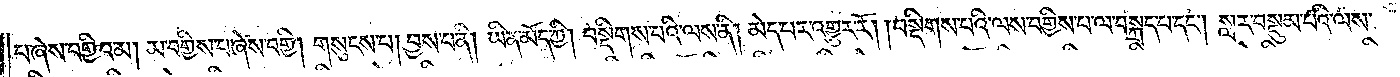པ་ཞེས་བགྱིའམ། མ་བགྱིས་པ་ཞེས་བགྱི། གསུངས་པ། བྱས་པ་ནི། ཡིན་མོད་ཀྱི། བསྡིགས་པའི་ལས་ནི། མེད་པར་འགྱུར་རོ། །བསྡིགས་པའི་ལས་བགྱིས་པ་ལ་བསྐྲད་པ་དང༌། སླར་བསྡུམ་པའི་ལས་
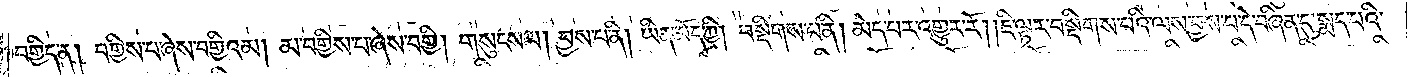བགྱིད་ན། བགྱིས་པ་ཞེས་བགྱིའམ། མ་བགྱིས་པ་ཞེས་བགྱི། གསུངས་པ། བྱས་པ་ནི། ཡིན་མོད་ཀྱི། བསྡིགས་པ་ནི། མེད་པར་འགྱུར་རོ། །ཇི་ལྟར་བསྡིགས་པའི་ལས་བྱས་པ་དེ་བཞིན་དུ་སྨད་པའི་
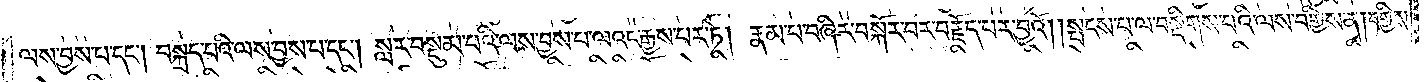ལས་བྱས་པ་དང༌། བསྐྲད་པའི་ལས་བྱས་པ་དང༌། སླར་བསྡུམ་པའི་ལས་བྱས་པ་ལའང་རྒྱས་པར་ཏེ། རྣམ་པ་བཞིར་བསྐོར་བར་བརྗོད་པར་བྱའོ། །སྤངས་པ་ལ་བསྡིགས་པའི་ལས་བགྱིས་ན། བགྱིས་
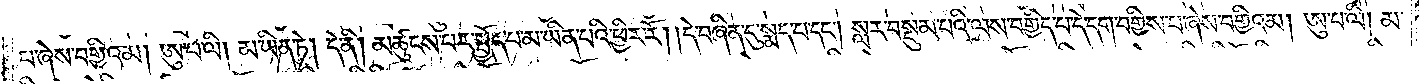པ་ཞེས་བགྱིའམ། ཨུ་པ་ལི། མ་ཡིན་ཏེ། དེ་ནི། མཚུངས་པར་སྤྱོད་པ་མ་ཡིན་པའི་ཕྱིར་རོ། །དེ་བཞིན་དུ་སྨད་པ་དང༌། སླར་བསྡུམ་པའི་ལས་བགྱིད་པ་དེ་དག་བགྱིས་པ་ཞེས་བགྱིའམ། ཨུ་པ་ལི། མ་
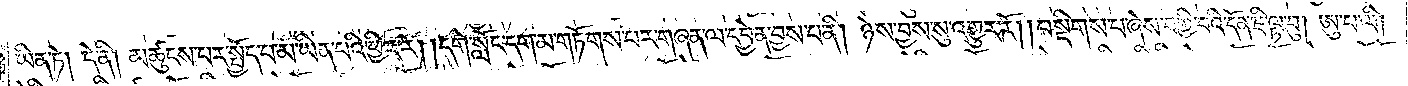ཡིན་ཏེ། དེ་ནི། མཚུངས་པར་སྤྱོད་པ་མ་ཡིན་པའི་ཕྱིར་རོ། །དགེ་སློང་དག་མ་གཏོགས་པར་གཞན་ལ་དབྱེན་བྱས་པ་ནི། ཉེས་བྱས་སུ་འགྱུར་རོ། །བསྡིགས་པ་ཞེས་བགྱི་བའི་དོན་ཇི་ལྟ་བུ། ཨུ་པ་ལི།
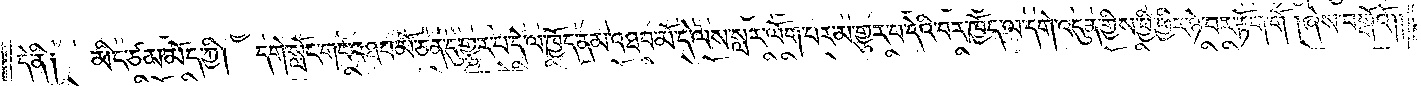དེ་ནི༑ མིང་ཙམ་མོད་ཀྱི། དགེ་སློང་གང་འཐབ་མོ་ཅན་དུ་གྱུར་པ་དེ་ལ་ཁྱོད་ནམ་འཐབ་མོ་དེ་ལས་སླར་ལོག་པར་མ་གྱུར་པ་དེའི་བར་ཁྱོད་ལ་དགེ་འདུན་གྱིས་ཕྱི་ཕྱིར་ཉེ་བར་རྟོག་གོ །ཞེས་བསྒོའོ༎
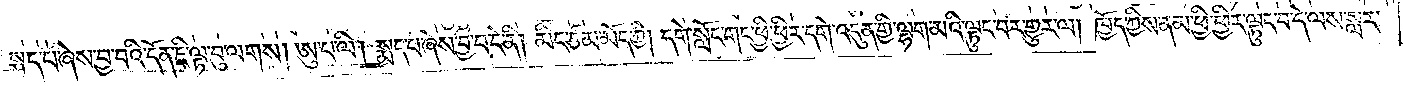སྨད་པ་ཞེས་བྱ་བའི་དོན་ཇི་ལྟ་བུ་ལགས། ཨུ་པ་ལི། སྨད་པ་ཞེས་བྱ་བ་དེ་ནི། མིང་ཙམ་མོད་ཀྱི། དགེ་སློང་གང་ཕྱི་ཕྱིར་དགེ་འདུན་གྱི་ལྷག་མའི་ལྟུང་བར་གྱུར་ལ། ཁྱོད་ཀྱིས་ནམ་ཕྱི་ཕྱིར་ལྟུང་བ་དེ་ལས་སླར་
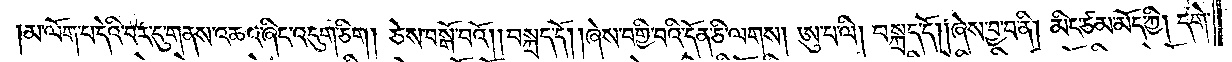མ་ལོག་པ་དེའི་བར་དུ་གནས་འཆའ་ཞིང་འདུག་ཅིག། ཅེས་བསྒོ་བའོ། །བསྐྲད་དོ། །ཞེས་བགྱི་བའི་དོན་ཅི་ལགས། ཨུ་པ་ལི། བསྐྲད་དོ། །ཞེས་བྱ་བ་ནི། མིང་ཙམ་མོད་ཀྱི། དགེ་
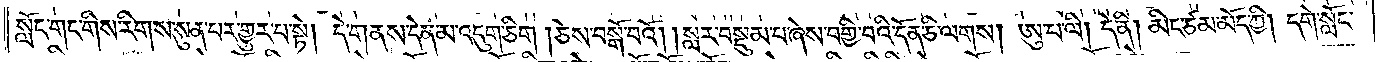སློང་གང་གིས་རིགས་སུན་པར་གྱུར་པ་སྟེ། དེ་གནས་དེ་ན་མ་འདུག་ཅིག །ཅེས་བསྒོ་བའོ། །སླར་བསྡུམ་པ་ཞེས་བགྱི་བའི་དོན་ཅི་ལགས། ཨུ་པ་ལི། དེ་ནི། མིང་ཙམ་མོད་ཀྱི། དགེ་སློང་
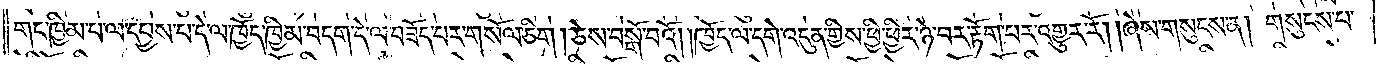གང་ཁྱིམ་པ་ལ་དཔྱས་པ་དེ་ལ་ཁྱོད་ཁྱིམ་བདག་དེ་ལ་བཟོད་པར་གསོལ་ཅིག །ཅེས་བསྒོ་བའོ། །ཁྱོད་ལ་དགེ་འདུན་གྱིས་ཕྱི་ཕྱིར་ཉེ་བར་རྟོག་པར་འགྱུར་རོ། །ཞེས་གསུངས་ན། གསུངས་པ་
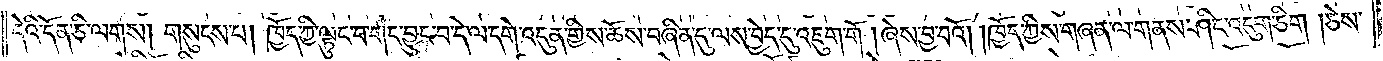དེའི་དོན་ཅི་ལགས། གསུངས་པ། ཁྱོད་ཀྱི་ལྟུང་བ་གང་བྱུང་བ་དེ་ལ་དགེ་འདུན་གྱིས་ཆོས་བཞིན་དུ་ལས་བྱེད་དུ་འཇུག་གོ །ཞེས་བྱ་བའོ། །ཁྱོད་ཀྱིས་གཞན་ལ་གནས་ཤིང་འདུག་ཅིག །ཅེས་
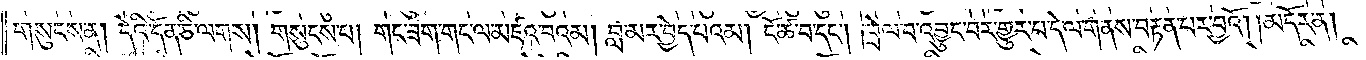གསུངས་ན། དེའི་དོན་ཅི་ལགས། གསུངས་པ། གང་ཟག་གང་ལ་མཛའ་བའམ། བླ་མར་བྱེད་པའམ། ངོ་ཚ་བ་དང༌། ཁྲེལ་བ་འབྱུང་བར་གྱུར་པ་དེ་ལ་གནས་བརྟན་པར་བྱའོ། །མདོར་ན།
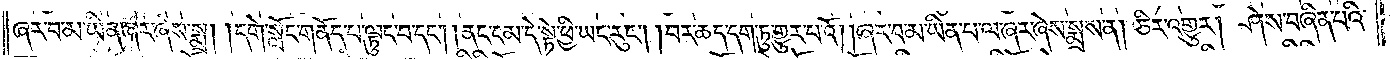ཞར་བ་མ་ཡིན་ཞར་ཞེས་སྨྲ། །དགེ་སློང་གནོད་པ་ལྟུང་བ་དང༌། །ནང་ངམ་དེ་སྟེ་ཕྱི་ཡང་རུང༌། །བར་ཆད་དག་ཏུ་གྱུར་པའོ། །ཞར་བ་མ་ཡིན་པ་ལ་ཞར་ཞེས་སྨྲས་ན། ཅིར་འགྱུར། ཤེས་བཞིན་པའི་
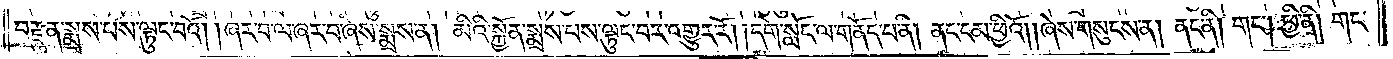བརྫུན་སྨྲས་པས་ལྟུང་བའོ། །ཞར་བ་ལ་ཞར་བ་ཞེས་སྨྲས་ན། མིའི་སྐྱོན་སྨྲས་པས་ལྟུང་བར་འགྱུར་རོ། །དགེ་སློང་ལ་གནོད་པ་ནི། ནང་ངམ་ཕྱིའོ། །ཞེས་གསུངས་ན། ནང་ནི། གང༌། ཕྱི་ནི། གང་
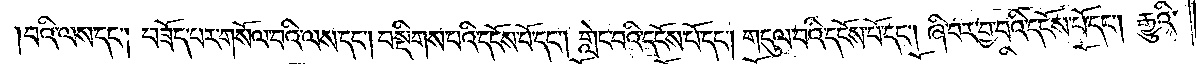བའི་ལས་དང༌། བཟོད་པར་གསོལ་བའི་ལས་དང༌། བསྡིགས་པའི་དངོས་པོ་དང༌། གླེང་བའི་དངོས་པོ་དང༌། གདུལ་བའི་དངོས་པོ་དང༌། ཞི་བར་བྱ་བའི་དངོས་པོ་དང༌། རྒྱུའི་
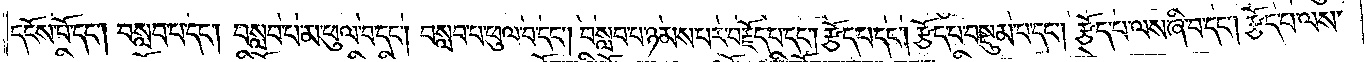དངོས་པོ་དང༌། བསླབ་པ་དང༌། བསླབ་པ་མ་ཕུལ་བ་དང༌། བསླབ་པ་ཕུལ་བ་དང༌། བསླབ་པ་ཉམས་པར་བརྗོད་པ་དང༌། རྩོད་པ་དང༌། རྩོད་པ་བསྡུམ་པ་དང༌། རྩོད་པ་ལས་ཞི་བ་དང༌། རྩོད་པ་ལས་
